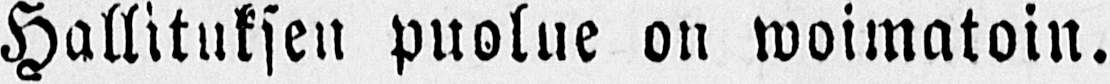Hallituksen puolue on woimatoin.
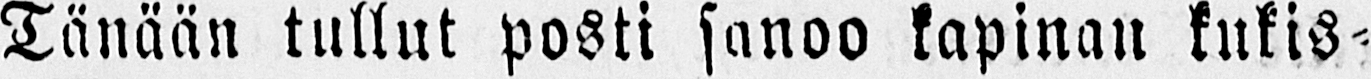Tänään tullut posti sanoo kapinan kukis-
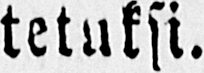tetuksi.
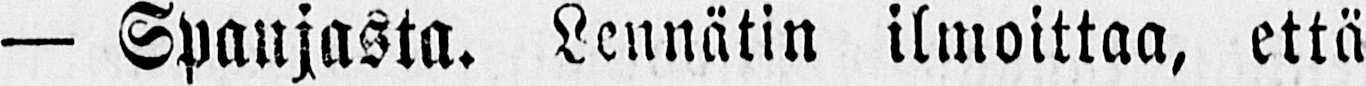— Spanjasta. Lennätin ilmoittaa, että
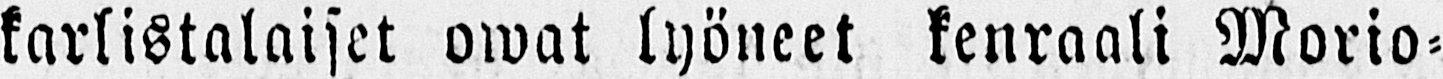karlistalaiset owat lyöneet kenraali Morio-
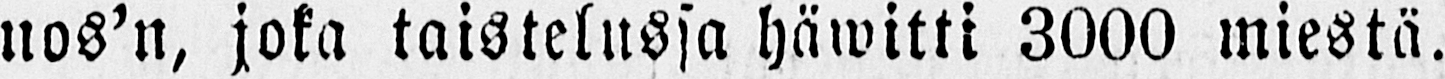nos'n, joka taistelussa häwitti 3000 miestä.
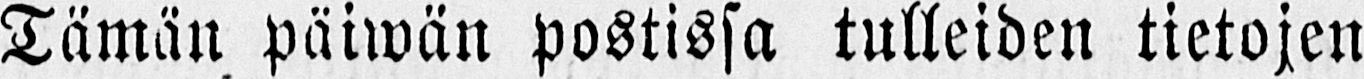Tämän päiwän postissa tulleiden tietojen
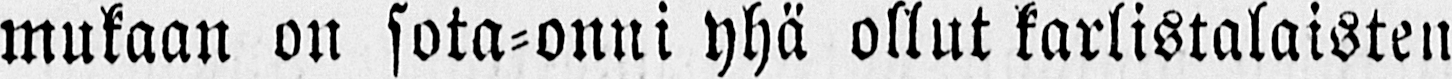mukaan on sota-onni yhä ollut karlistalaisten
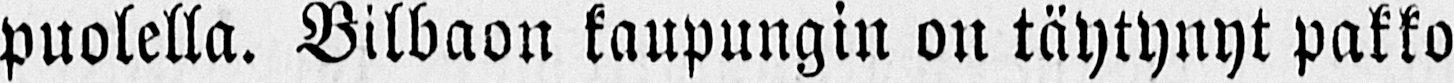puolella. Bilbaon kaupungin on täytynyt pakko
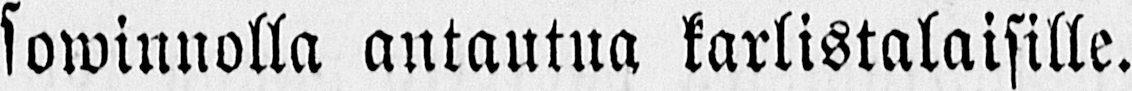sowinnolla antautua karlistalaisille.
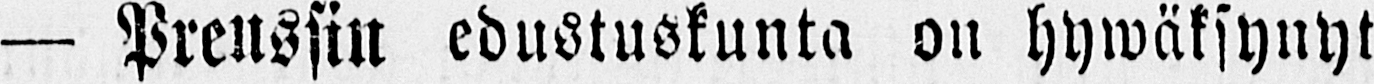— Preussin edustuskunta on hywäksynyt
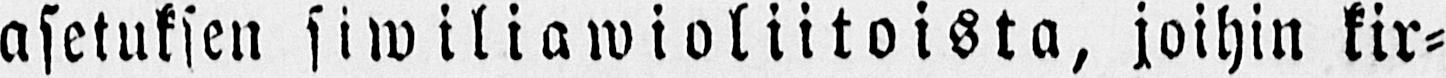asetuksen siwiliawioliitoista, joihin kir-
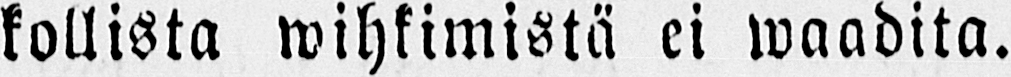kollista wihkimistä ei waadita.
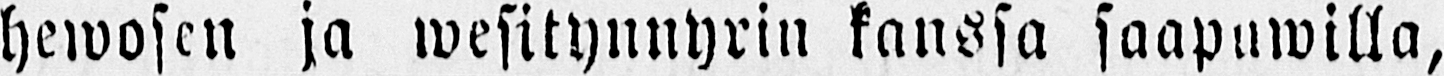hewosen ja wesitynnyrin kanssa saapuwilla,
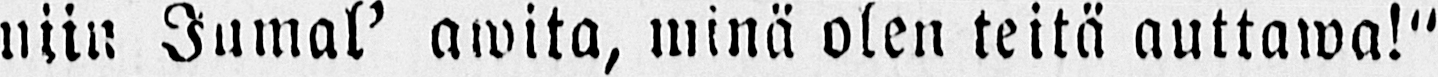niin Jumal' awita, minä olen teitä auttawa!"
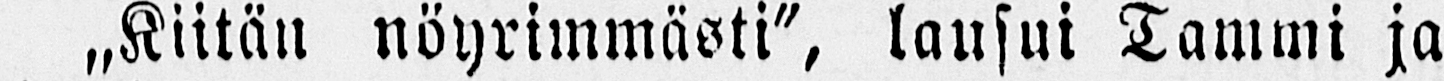˶Kiitän nöyrimmästi", lausui Tammi ja
